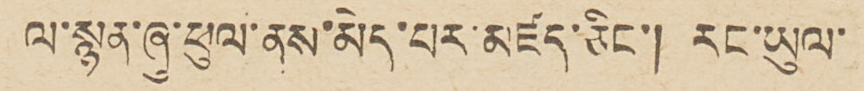ལ་སྙན་ཞུ་ཕུལ་ནས་མེད་པར་མཛད་ཅིང་། རང་ཡུལ་
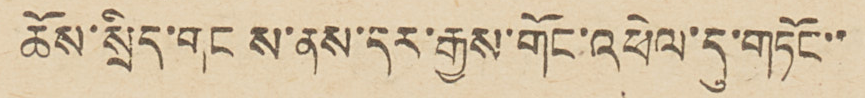ཆོས་སྲིད་གང ས་ནས་དར་རྒྱས་གོང་འཕེལ་དུ་གཏོང་་
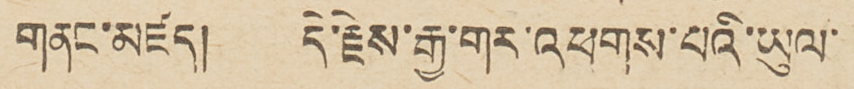གནང་མཛད། དེ་རྗེས་རྒྱ་གར་འཕགས་པའི་ཡུལ་
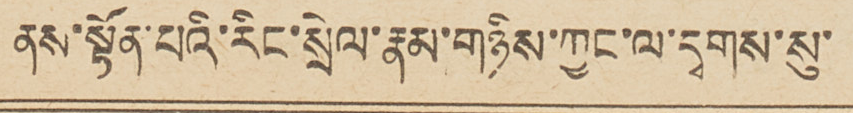ནས་སྟོན་པའི་རིང་སྲེལ་རྣམ་གཉིས་ཀྱང་ལ་དྭགས་སུ་
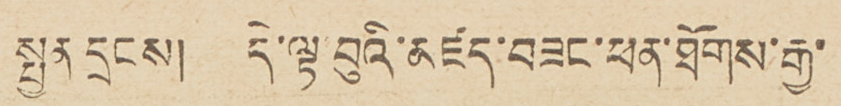སྤྱན དྲངས། དེ་ལྟ བུའི་མཛད་བཟང་ཕན་ཐོགས་རྒྱ་
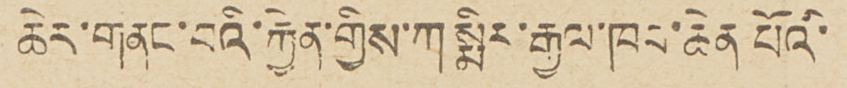ཆེར་གནང་བའི་རྐྱེན་གྱིས་ཀསྨིར་རྒྱལ་ཁབ་ཆེན པོའི་
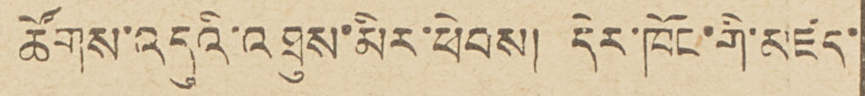ཚོགས་འདུའི་འཐུས་མིར་ཕེབས། དེར་ཁོང་གི་མཛད་
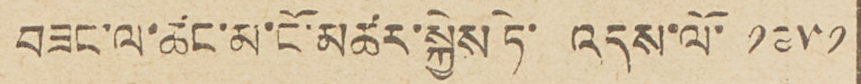བཟང་ལ་ཚང་མ་ངོ་མཚར་སྐྱེས ཏེ་ འདས་ལོ་ ༡༩༥༡
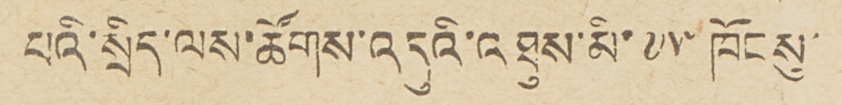པའི་སྲིད་ལས་ཚོགས་འདུའི་འཐུས་མི་ ༧༥ ཁོངསུ་
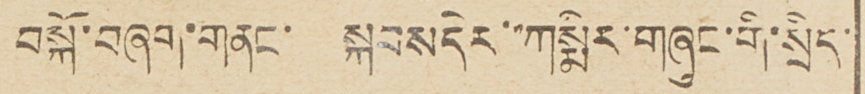བསྐོ་བཞག་གནང་  སྐབས དེར་་ཀསྨིར་གཞུང་གི་སྲིད་
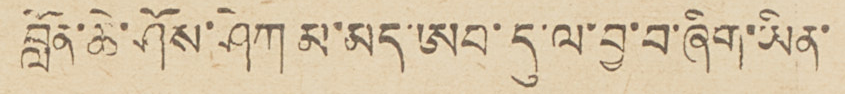བློན་ཆེ་ཤོས་ཤེཀ མ་མད་ཨབ་དུ་ལ་བྱ་བ་ཞིག་ཡིན་
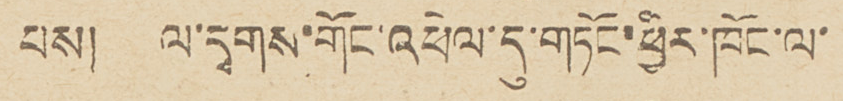པས། ལ་དྭགས་གོང་འཕེལ་དུ་གཏོང་ཕྱིར་ཁོང་ལ་
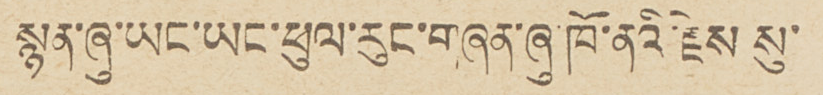སྙན་ཞུ་ཡང་ཡང་ཕུལ་རུང་གཞན་ཞུ་ཁོ་ནའི་རྗེས སུ་
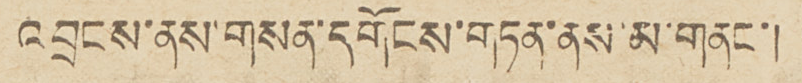འབྲངས་ནས་གསན་དགོངས་གཏན་ནས་མ་གནང་།
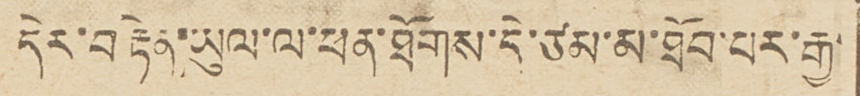དེར་བརྟེན་ཡུལ་ལ་ཕན་ཐོགས་དེ་ཙམ་མ་ཐོབ་པར་རྒྱ་
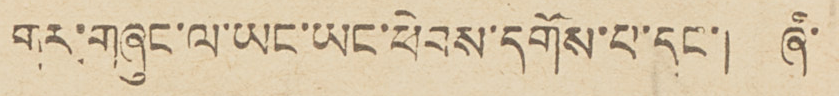གར་གཞུང་ལ་ཡང་ཡང་ཕེབས་དགོས་པ་དང་།    ཞི་
